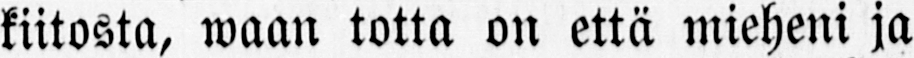kiitosta, waan totta on että mieheni ja
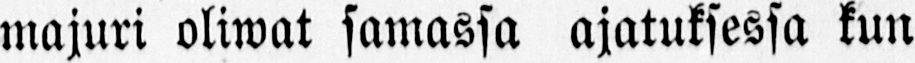majuri oliwat samassa ajatuksessa kun
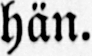hän.
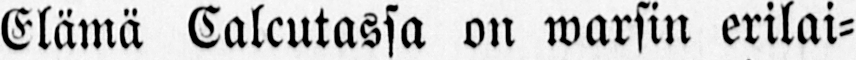Elämä Calcutassa on warsin erilai-
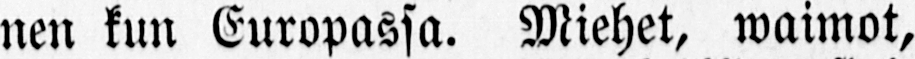nen kun Europassa. Miehet, waimot,
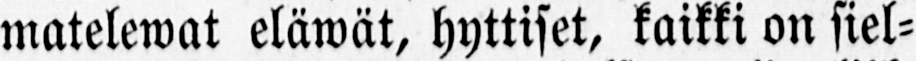matelewat eläwät, hyttiset, kaikki on siel-
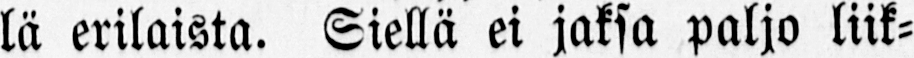lä erilaista. Siellä ei jaksa paljo liik-
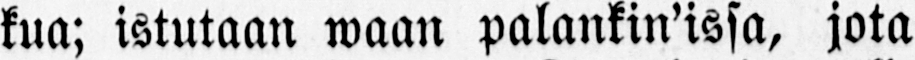kua; istutaan waan palankin’issa, jota
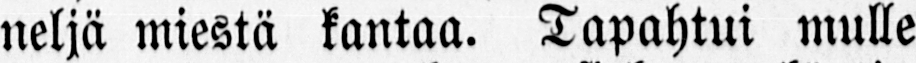neljä miestä kantaa. Tapahtui mulle
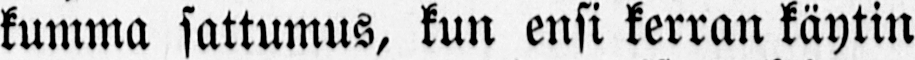kumma sattumus, kun ensi kerran käytin
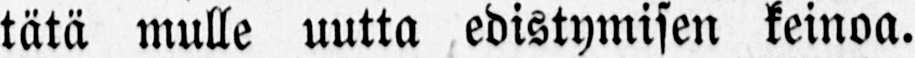tätä mulle uutta edistymisen keinoa.
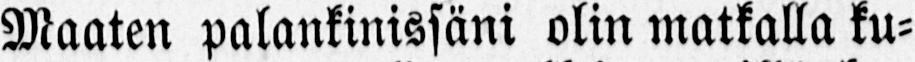Maaten palankinissäni olin matkalla ku-
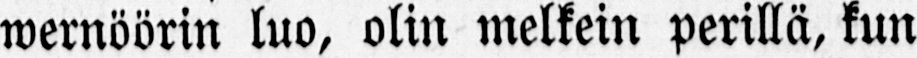wernöörin luo, olin melkein perillä, kun
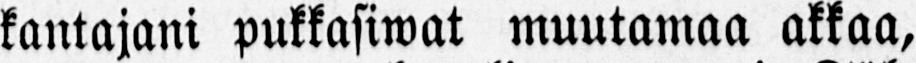kantajani pukkasiwat muutamaa akkaa,
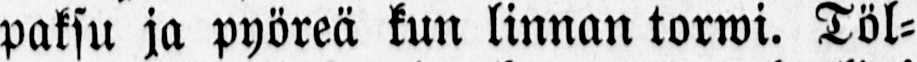paksu ja pyöreä kun linnan torwi. Töl-
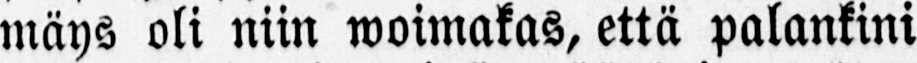mäys oli niin woimakas, että palankini
